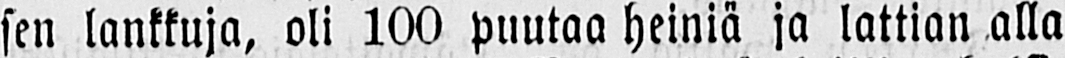sen lankkuja, oli 100 puutaa heiniä ja lattian alla
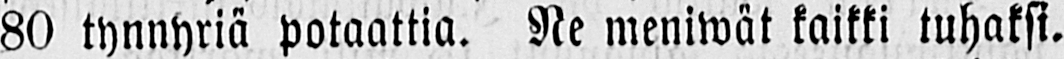80 tynnyriä potaattia. Ne meniwät kaikki tuhaksi.
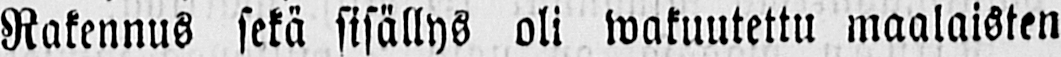Rakennus sekä sisällys oli wakuutettu maalaisten
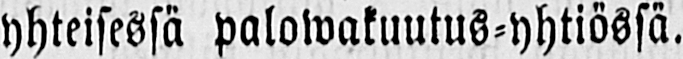yhteisessä palowakuutus-yhtiössä.
